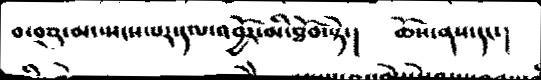བ་བཅུ་མ་སྤངས་པར་དལ་འབྱོར་མི་ཐོབ་སྟེ་།  ཆོས་ནས་དང་།
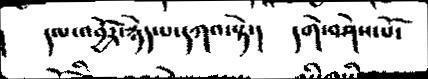དལ་འབྱོར་རྙེད་པ་དཀའ་སྟེ་།  དགེ་བཤེས་པོ་
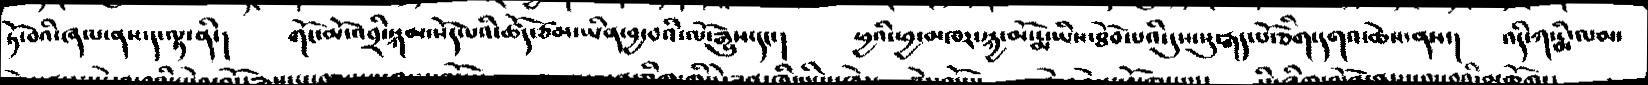ཏོ་བའི་ཞལ་ནས་ད་ལྟ་ནི་།   གོང་མོ་འབྲི་སྐམ་སོད་པའི་ཆོད་ཙམ་ཡིན་བྱ་བའི་ལོ་རྒྱུས་དང་།  ཕྱའི་ཕྱ་མཁར་སྐྱ་མོ་རྨ་ཡིས་ཐོབ་པའི་དུས་སུ་རྒད་པོ་ཅིག་དགའ་ཆེས་ནས་།  འདི་ཀ་རྨི་ལམ་
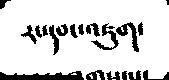རང་དབང་འཇུག་
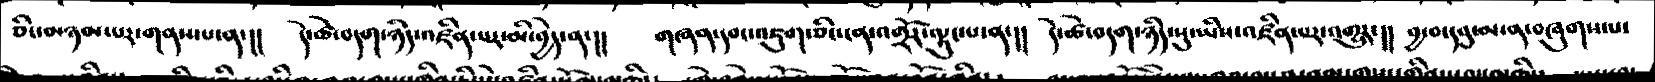ཅིང་མཉམ་པར་གནས་པ་ན་།།  དེ་ཚེ་བདག་ཉིད་འཛིན་པར་མི་བྱེད་ན་།།  གཞན་དབང་འཇུག་ཅིང་ངན་འགྲོར་ལྷུང་པ་ན་།།   དེ་ཚེ་བདག་ཉིད་སུ་ཡིས་འཛིན་པར་འགྱུར་།།   བྱ་བ་དབུ་མ་ན་བཞུགས་པ་
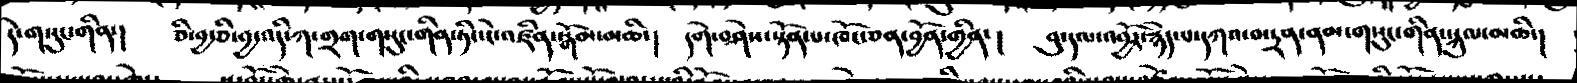དེ་གསུང་གིན་།   ཅི་བྱ་ཅི་བྱ་འདི་ཀ་གྲག་གསུང་གིན་ཏིང་ངེ་འཛིན་སྒོམ་མཆི་།  དགེ་བཤེས་སྟོན་པ་ཁོང་ཅན་བྱོན་གྱིན་།  བུ་དལ་འབྱོར་རྙེད་པ་དཀའ་བ་དྲན་ནམ་གསུང་གིན་སྐུལ་མཆི་།
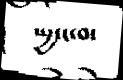སྤྱ་ང་བ་
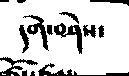དགེ་བཤེས་
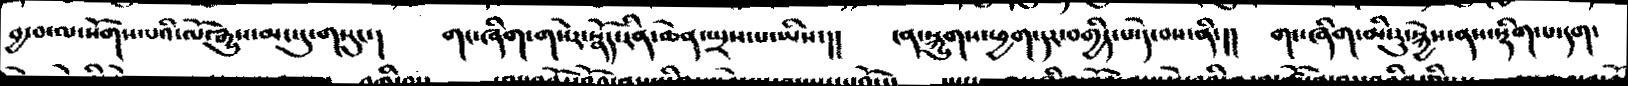བྱ་བ་ལ་སོགས་པའི་ལོ་རྒྱུས་མང་དུ་གསུང་།  གང་ཞིག་གསེར་སྣོད་རིན་ཆེན་སྤྲས་པ་ཡིས་།།  ངན་སྐྱུགས་ཕྱག་དར་བགྱིད་པ་དེ་བས་ནི་།།   གང་ཞིག་མི་རུ་སྐྱེས་ནས་སྡིག་པ་དག་
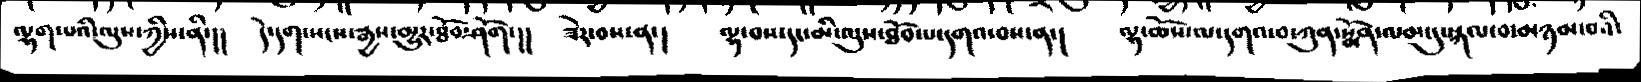ལྷག་པའི་ལུས་ཀྱིས་ནི་།།  དེ་དག་སངས་རྒྱས་མྱུར་ཐོབ་ཤོག་།།  ཟེར་བས་ན་།  ལྷ་བས་དང་མི་ལུས་ཐོབ་པ་དགའ་བས་ན་།  ལྷ་ཆོས་ལ་དགའ་བ་ཀུན་སྨོན་ལམ་དུ་སྐལ་བ་མཉམ་བའི་
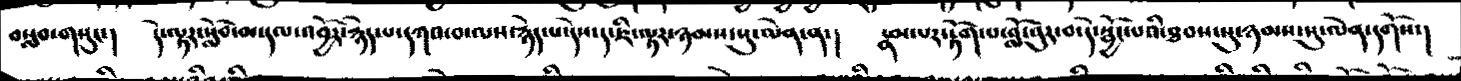བསླབ་གསུང་།  དེ་ལྟར་སློབ་མ་དལ་འབྱོར་རྙེད་པ་དཀའ་བ་ལས་རྙེད་པ་དེས་ད་ཇི་ལྟར་ཉམས་སུ་ལེན་ན་།  རྣམ་པར་རྟོག་པ་བློ་བུར་བ་དེ་སྦྱོང་པའི་ཐབས་སུ་ཉམས་སུ་ལེན་དགོས་།
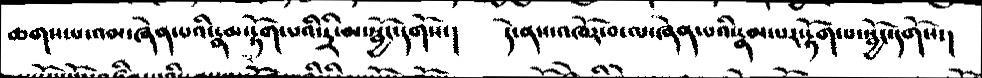ཆགས་པ་འམ་ཞེན་པའི་རྣམ་རྟོག་པའི་དྲི་མ་སྦྱོང་དགོས་།  དེ་ནས་འཁོར་བ་ལ་ཞེན་པའི་རྣམ་པར་རྟོག་པ་སྦྱོང་དགོས་།
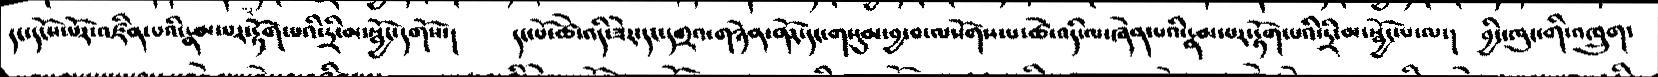དང་དངོས་པོར་འཛིན་པའི་རྣམ་པར་རྟོག་པའི་དྲི་མ་སྦྱོང་དགོས་།  དང་པོ་ཚེ་འདི་ཟེར་དང་དགྲའ་གཉེན་ནོར་དང་གསུམ་བྱ་བ་ལསོགས་པ་ཚེ་འདི་ལ་ཞེན་པའི་རྣམ་པར་རྟོག་པའི་དྲི་མ་སྦྱོང་པ་ལ་།  བྱིང་ཁུང་གི་འཁྲུག་
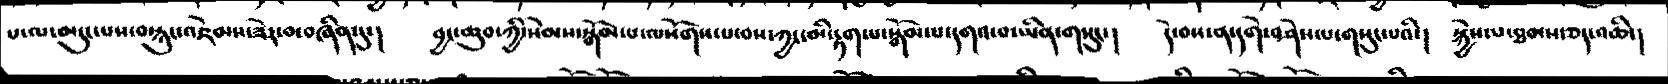པ་ལ་མདུང་པས་བསྙུང་འཇེམས་ཟེར་བ་བཞིན་དུ་།  བྱང་ཆུབ་ཀྱི་སེམས་སྒོམ་པ་ལསོགས་བས་ཀྱང་མི་རྟག་པ་སྒོམ་པ་དགའ་བ་ཡིན་གསུང་།  དེ་བས་ན་དགེ་བཤེས་པ་གསུང་པའི་།   སྐྱེས་པ་ཐམས་ཅན་འཆི་།
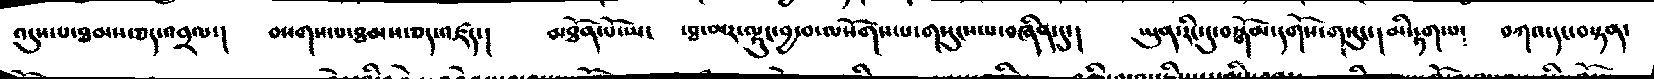འདུས་པ་ཐམས་ཅད་འབྲལ་།  བསགས་པ་ཐམས་ཅན་འཛད་།  མཐོན་པོ་ཡང་   ་ཐ་མར་ལྟུང་བྱ་བ་ལསོགས་པ་གསུངས་པ་བཞིན་དུ་།  ཡུན་རིང་དུ་བསྒོམ་དགོས་གསུང་།  མི་རྟག་པ༴    བཀའ་དང་བསྟན་
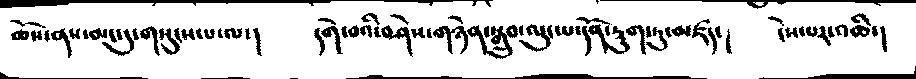ཆོས་ནད་མང་དུ་གསུངས་པ་ལ་།  དགེ་བའི་བཤེས་གཉེན་སྒྲུབ་ལུང་པ་དོན་རྡུག་ཏུ་མཛད་།  ངེས་པར་འཆི་།
